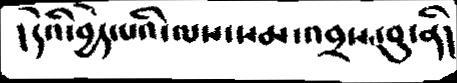།དེའི་བྱེད་པའི་ལས་སམ་འབྲས་བུ་ནི།
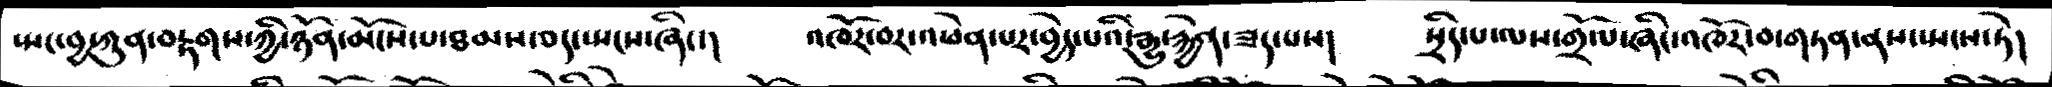སྤང་བྱ་ཀུན་བརྟགས་ཀྱི་ཉོན་མོངས་པ་ཐམས་ཅད་སྤངས་ཞིང་།   འཁོར་བར་འཕེན་པར་བྱེད་པའི་རྒྱུ་རྐྱེན་ཟད་པས།   སྲིད་པ་ལས་གྲོལ་ཞིང་འཁོར་བ་གཏན་ནས་སྤངས་ཏེ།
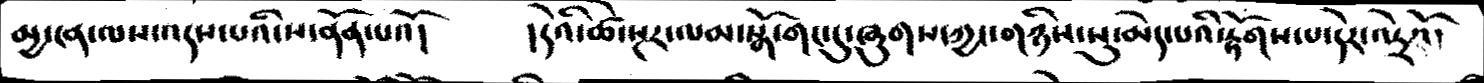མྱ་ངན་ལས་འདས་པའི་ས་ནོན་པའོ།   །དེའི་ཚེ་སྔར་ལམ་སྒོ་གང་དུ་ཞུགས་ཀྱང་གཉིས་སུ་མེད་པའི་རྟོགས་པ་དེར་འདྲེའོ།
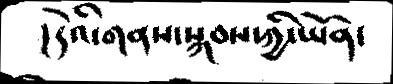།དེའི་གནས་སྐབས་ཀྱི་ཡོན་
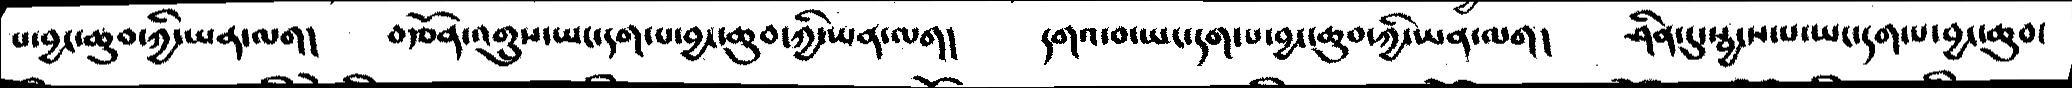པ་བྱང་ཆུབ་ཀྱི་ཡན་ལག།   བརྩོན་འགྲུས་ཡང་དག་པ་བྱང་ཆུབ་ཀྱི་ཡན་ལག།   དགའ་བ་ཡང་དག་པ་བྱང་ཆུབ་ཀྱི་ཡན་ལག།   ཤིན་དུ་སྦྱངས་པ་ཡང་དག་པ་བྱང་ཆུབ་
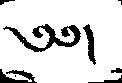༄༅།
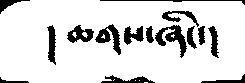།ཆགས་ཞིང་།
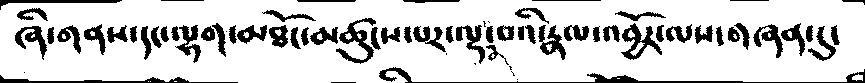ཞི་གནས་དང་ལྷག་མཐོང་མཚུངས་པར་ལྡན་པའི་རྣལ་འབྱོར་ལས་གཞན་དུ་
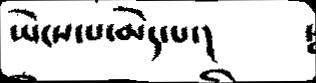ཡེངས་པ་མེད་པ་།
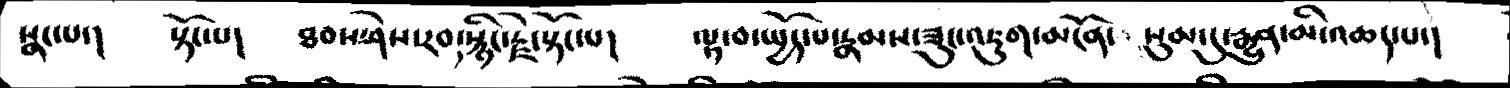སྣང་པ་།   སྟོང་པ།   ཐབས་ཤེས་རབ་སྙིང་རྗེ་སྟོང་པ།   ལྟ་བ་སྤྱོད་པ་རྣམས་ཟུང་འཇུག་མངོན་སུམ་དུ་རྒྱུན་མི་འཆད་པ་།
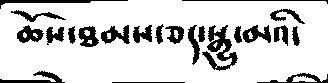ཆོས་ཐམས་ཅད་སྒྱུ་མའི་
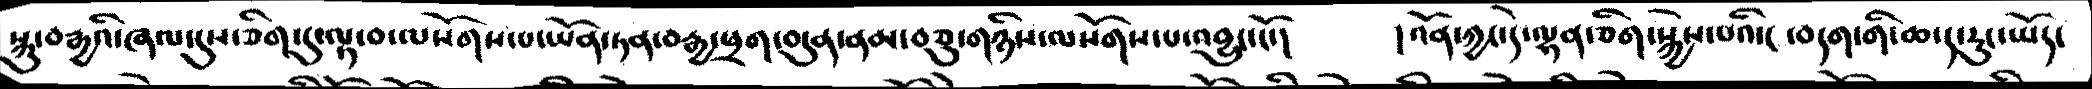སྐུ་བརྒྱའི་ཞལ་དུས་ཅིག་དུ་ལྟ་བ་ལསོགས་པ་ཡོན་ཏན་བརྒྱ་ཕྲག་བདུན་ནམ་བཅུ་གཉིས་ལསོགས་པ་འབྱུང་ངོ་།   །འོན་ཀྱང་དེ་ལྷན་ཅིག་སྐྱེས་པའི་ང་བདག་གི་ཆ་ད་རུང་ཡོད་
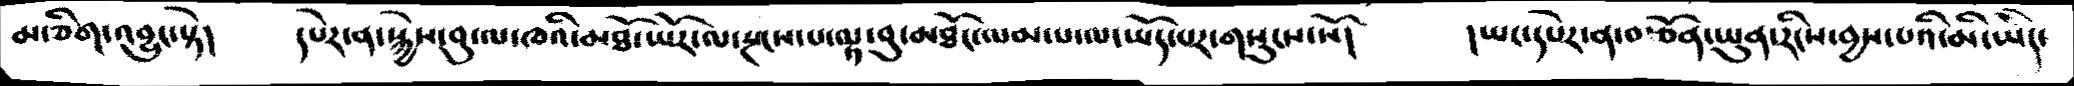མ་ཅིག་འབྱུང་སྟེ།   དཔེར་ན་སྐྱེས་བུ་ལ་ཁའི་མཐོ་ཡོར་ལ་སྔངས་པ་ལྟ་བུ་མཐོང་ལམ་པ་ལ་ཡོད་པར་གསུངས་སོ།   །ཡང་དཔེར་ན་བརྩོན་ཡུན་རིངས་བྱས་པའི་མི་ཡིད་
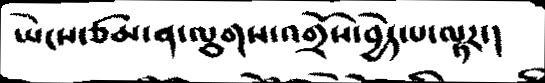ཡེངས་ཙམ་ན་ལྕགས་འགྲོས་བྱེད་པ་ལྟར་།
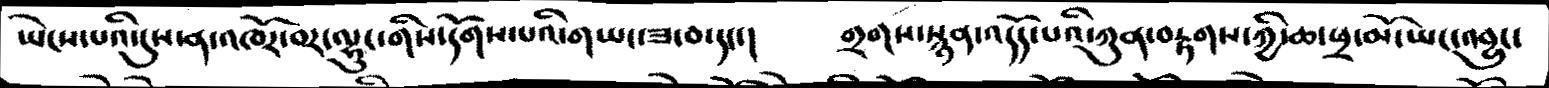ཡེངས་པའི་དུས་ན་འཁོར་བར་ལྷུང་གིས་དོགས་པའི་གཡང་ཟ་བ་དང་།   གྲགས་སྙན་འདོད་པའི་ཀུན་བརྟགས་ཀྱི་ཆ་ཕྲ་མོ་ཡང་འབྱུང་
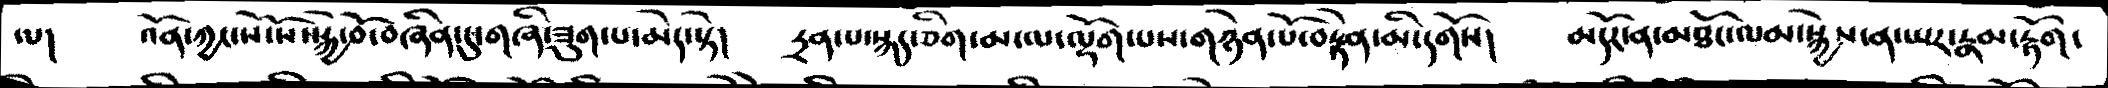ལ།   འོན་ཀྱང་སོ་སོ་སྐྱེ་བོ་བཞིན་དུ་གཞི་ཟུག་པ་མེད་སྟེ།   དྲན་པ་སྐད་ཅིག་མ་ལ་ལྡོག་པས་གཉེན་པོ་བརྟེན་མི་དགོས།   མདོར་ན་མཐོང་ལམ་སྐྱེས་ན་ཡར་རྣམ་རྟོག་
